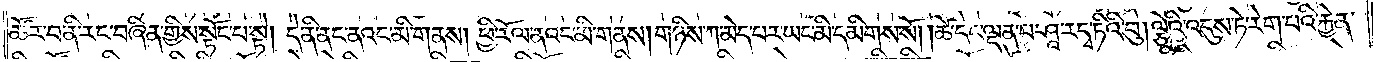ཚོར་བ་ནི་རང་བཞིན་གྱིས་སྟོང་པ་སྟེ། དེ་ནི་ནང་ནའང་མི་གནས། ཕྱི་རོལ་ནའང་མི་གནས། གཉིས་ཀ་མེད་པར་ཡང་མི་དམིགས་སོ། ཚེ་དང་ལྡན་པ་ཤཱ་ར་དྭ་ཏིའི་བུ། ལྕེའི་འདུས་ཏེ་རེག་པའི་རྐྱེན་
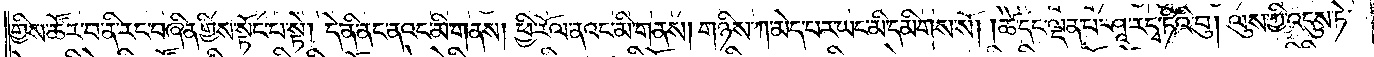གྱིས་ཚོར་བ་ནི་རང་བཞིན་གྱིས་སྟོང་པ་སྟེ། དེ་ནི་ནང་ནའང་མི་གནས། ཕྱི་རོལ་ནའང་མི་གནས། གཉིས་ཀ་མེད་པར་ཡང་མི་དམིགས་སོ། །ཚེ་དང་ལྡན་པ་ཤཱ་ར་དྭ་ཏིའི་བུ། ལུས་ཀྱི་འདུས་ཏེ་
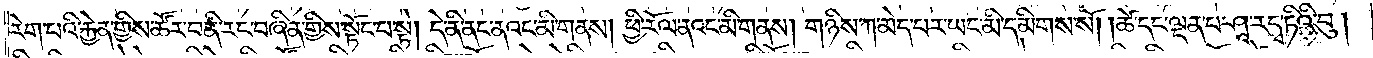རེག་པའི་རྐྱེན་གྱིས་ཚོར་བ་ནི་རང་བཞིན་གྱིས་སྟོང་པ་སྟེ། དེ་ནི་ནང་ནའང་མི་གནས། ཕྱི་རོལ་ནའང་མི་གནས། གཉིས་ཀ་མེད་པར་ཡང་མི་དམིགས་སོ། །ཚེ་དང་ལྡན་པ་ཤཱ་ར་དྭ་ཏིའི་བུ།
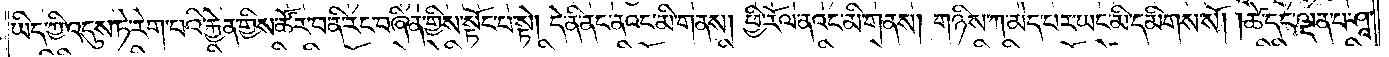ཡིད་ཀྱི་འདུས་ཏེ་རེག་པའི་རྐྱེན་གྱིས་ཚོར་བ་ནི་རང་བཞིན་གྱིས་སྟོང་པ་སྟེ། དེ་ནི་ནང་ནའང་མི་གནས། ཕྱི་རོལ་ནའང་མི་གནས། གཉིས་ཀ་མེད་པར་ཡང་མི་དམིགས་སོ། །ཚེ་དང་ལྡན་པ་ཤཱ་
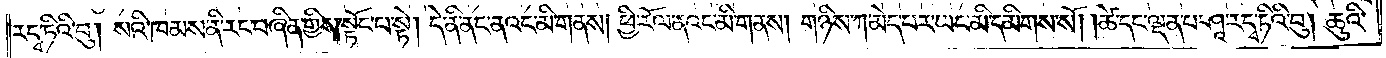ར་དྭ་ཏིའི་བུ། སའི་ཁམས་ནི་རང་བཞིན་གྱིས་སྟོང་པ་སྟེ། དེ་ནི་ནང་ནའང་མི་གནས། ཕྱི་རོལ་ནའང་མི་གནས། གཉིས་ཀ་མེད་པར་ཡང་མི་དམིགས་སོ། །ཚེ་དང་ལྡན་པ་ཤཱ་ར་དྭ་ཏིའི་བུ། ཆུའི་
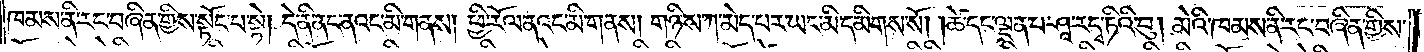ཁམས་ནི་རང་བཞིན་གྱིས་སྟོང་པ་སྟེ། དེ་ནི་ནང་ནའང་མི་གནས།ཕྱི་རོལ་ནའང་མི་གནས། གཉིས་ཀ་མེད་པར་ཡང་མི་དམིགས་སོ། །ཚེ་དང་ལྡན་པ་ཤཱ་ར་དྭ་ཏིའི་བུ། མེའི་ཁམས་ནི་རང་བཞིན་གྱིས་
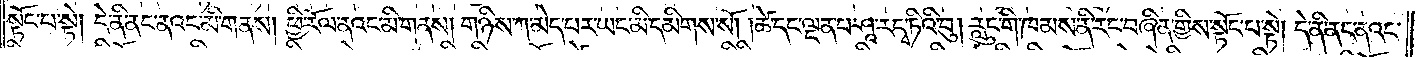སྟོང་པ་སྟེ། དེ་ནི་ནང་ནའང་མི་གནས། ཕྱི་རོལ་ནའང་མི་གནས། གཉིས་ཀ་མེད་པར་ཡང་མི་དམིགས་སོ། །ཚེ་དང་ལྡན་པ་ཤཱ་ར་དྭ་ཏིའི་བུ། རླུང་གི་ཁམས་ནི་རང་བཞིན་གྱིས་སྟོང་པ་སྟེ། དེ་ནི་ནང་ནའང་
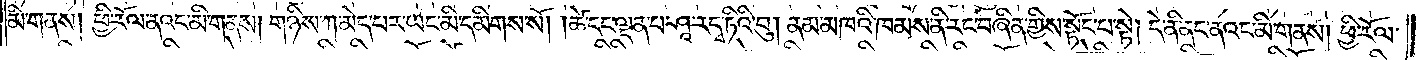མི་གནས། ཕྱི་རོལ་ནའང་མི་གནས། གཉིས་ཀ་མེད་པར་ཡང་མི་དམིགས་སོ། །ཚེ་དང་ལྡན་པ་ཤཱ་ར་དྭ་ཏིའི་བུ། ནམ་མཁའི་ཁམས་ནི་རང་བཞིན་གྱིས་སྟོང་པ་སྟེ། དེ་ནི་ནང་ནའང་མི་གནས། ཕྱི་རོལ་
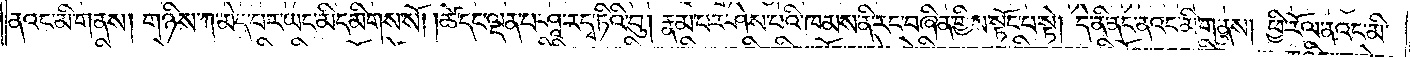ནའང་མི་གནས། གཉིས་ཀ་མེད་པར་ཡང་མི་དམིགས་སོ། །ཚེ་དང་ལྡན་པ་ཤཱ་ར་དྭ་ཏིའི་བུ། རྣམ་པར་ཤེས་པའི་ཁམས་ནི་རང་བཞིན་གྱིས་སྟོང་པ་སྟེ། དེ་ནི་ནང་ནའང་མི་གནས། ཕྱི་རོལ་ནའང་མི་
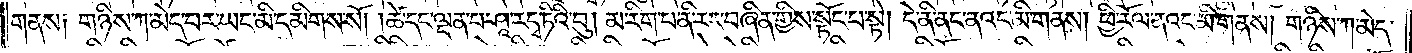གནས། གཉིས་ཀ་མེད་པར་ཡང་མི་དམིགས་སོ། །ཚེ་དང་ལྡན་པ་ཤཱ་ར་དྭ་ཏིའི་བུ། མ་རིག་པ་ནི་རང་བཞིན་གྱིས་སྟོང་པ་སྟེ། དེ་ནི་ནང་ནའང་མི་གནས། ཕྱི་རོལ་ནའང་མི་གནས། གཉིས་ཀ་མེད་
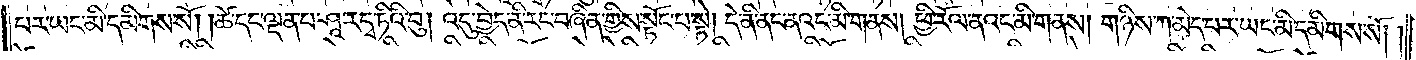པར་ཡང་མི་དམིགས་སོ། །ཚེ་དང་ལྡན་པ་ཤཱ་ར་དྭ་ཏིའི་བུ། འདུ་བྱེད་ནི་རང་བཞིན་གྱིས་སྟོང་པ་སྟེ། དེ་ནི་ནང་ནའང་མི་གནས། ཕྱི་རོལ་ནའང་མི་གནས། གཉིས་ཀ་མེད་པར་ཡང་མི་དམིགས་སོ། །
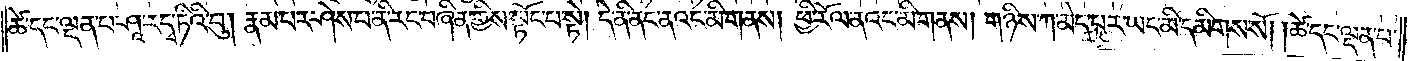ཚེ་དང་ལྡན་པ་ཤཱ་ར་དྭ་ཏིའི་བུ། རྣམ་པར་ཤེས་པ་ནི་རང་བཞིན་གྱིས་སྟོང་པ་སྟེ། དེ་ནི་ནང་ནའང་མི་གནས། ཕྱི་རོལ་ནའང་མི་གནས། གཉིས་ཀ་མེད་པར་ཡང་མི་དམིགས་སོ། །ཚེ་དང་ལྡན་པ་
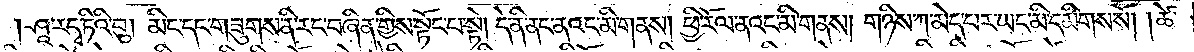ཤཱ་ར་དྭ་ཏིའི་བུ། མིང་དང་གཟུགས་ནི་རང་བཞིན་གྱིས་སྟོང་པ་སྟེ། དེ་ནི་ནང་ནའང་མི་གནས། ཕྱི་རོལ་ནའང་མི་གནས། གཉིས་ཀ་མེད་པར་ཡང་མི་དམིགས་སོ། །ཚེ་
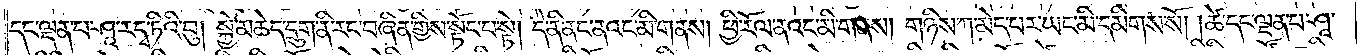དང་ལྡན་པ་ཤཱ་ར་དྭ་ཏིའི་བུ། སྐྱེ་མཆེད་དྲུག་ནི་རང་བཞིན་གྱིས་སྟོང་པ་སྟེ། དེ་ནི་ནང་ནའང་མི་གནས། ཕྱི་རོལ་ནའང་མི་གནས། གཉིས་ཀ་མེད་པར་ཡང་མི་དམིགས་སོ། །ཚེ་དང་ལྡན་པ་ཤཱ་
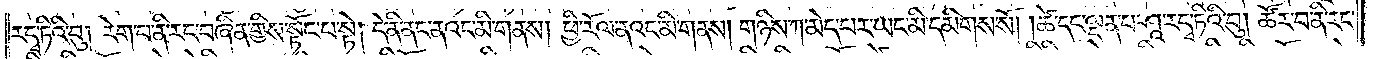ར་དྭ་ཏིའི་བུ། རེག་པ་ནི་རང་བཞིན་གྱིས་སྟོང་པ་སྟེ། དེ་ནི་ནང་ནའང་མི་གནས། ཕྱི་རོལ་ནའང་མི་གནས། གཉིས་ཀ་མེད་པར་ཡང་མི་དམིགས་སོ། །ཚེ་དང་ལྡན་པ་ཤཱ་ར་དྭ་ཏིའི་བུ། ཚོར་བ་ནི་རང་
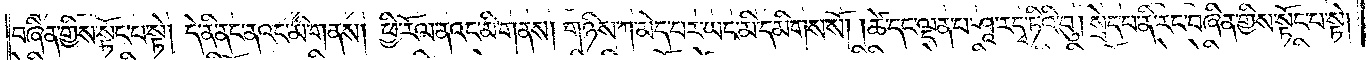བཞིན་གྱིས་སྟོང་པ་སྟེ། དེ་ནི་ནང་ནའང་མི་གནས། ཕྱི་རོལ་ནའང་མི་གནས། གཉིས་ཀ་མེད་པར་ཡང་མི་དམིགས་སོ། །ཚེ་དང་ལྡན་པ་ཤཱ་ར་དྭ་ཏིའི་བུ། སྲེད་པ་ནི་རང་བཞིན་གྱིས་སྟོང་པ་སྟེ།
